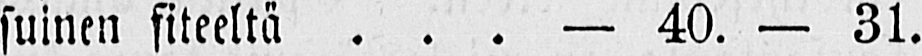suinen siteeltä — 40. — 31.
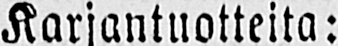Karjantuotteita:
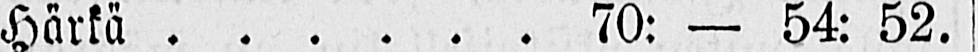Härkä 70: — 54: 52.
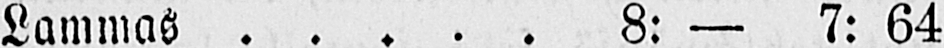Lammas 8: — 7: 64.
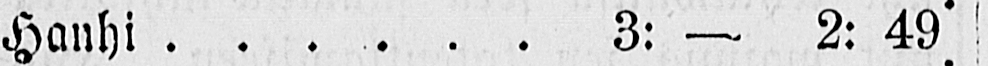Hanhi 3: — 2: 49 .
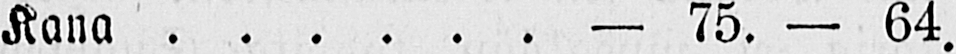Kana —75.-64.
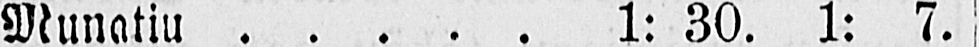Munatiu 1: 30. 1: 7.
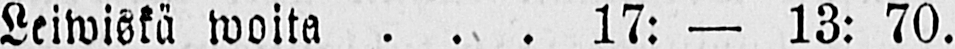Leiwiskä woita 17: — 13: 70.
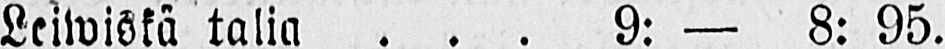Leiwiskä talia 9: — 8: 95.
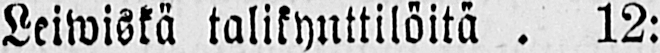Leiwiskä talikynttilöitä 12:
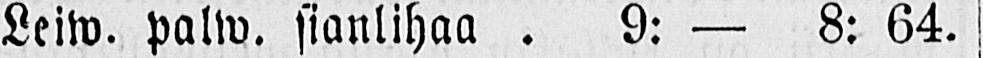Leiw. palw. sianlihaa 9: — 8: 64.
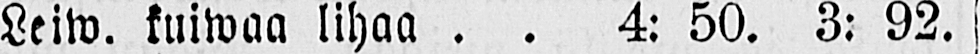Leiw. kuiwaa lihaa 4: 50. 3: 92.
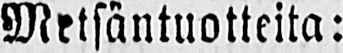Metsäntuotteita:
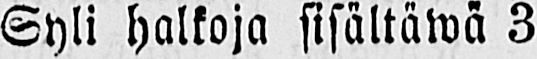Syli halkoja sisältäwä 3
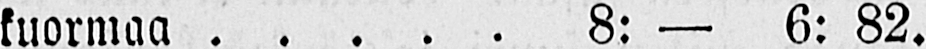kuormaa 8: — 6: 82.
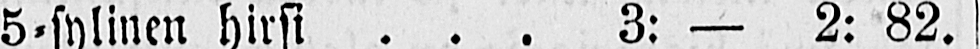5-sylinen hirsi 3: — 2: 82.
